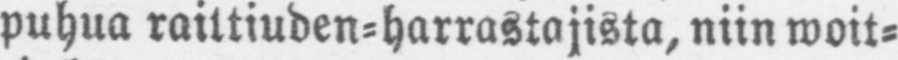puhua raittiuden-harrastajista, niin woit-
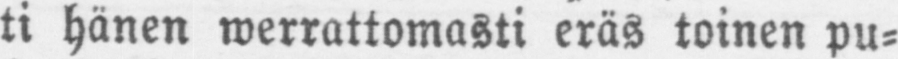ti hänen merrattomasti eräs toinen pu-
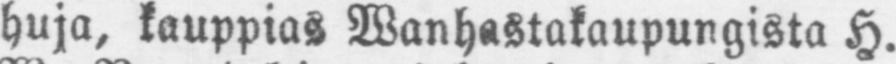huja, kauppias Wanhastakaupungista H.
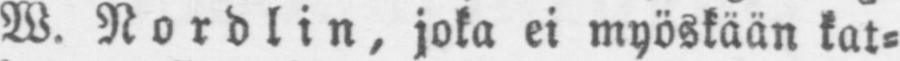W. Nordiin, joka ei myöskään kat-
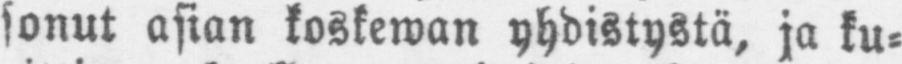sonut asian koskewan yhdistystä, ja ku-
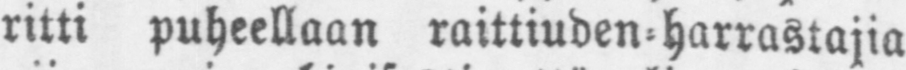ritti puheellaan raittiuden-harrastajia
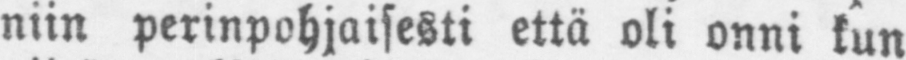niin perinpohjaisesti että oli onni kun
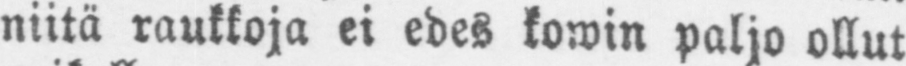niitä raukkoja ei edes kowin paljo ollut
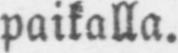paikalla.
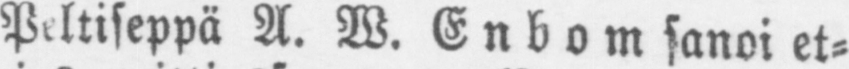Peltiseppä A. W. Enbom sanoi et-
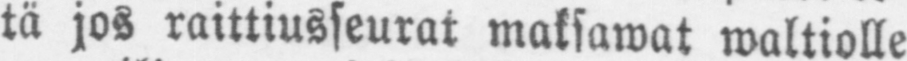tä jos raittiusseurat maksawat waltiolle
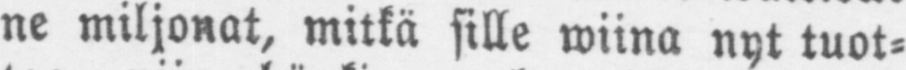ne miljonat, mitkä sille wiina nyt tuot-
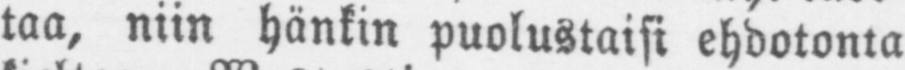taa, niin hänkin puolustaisi ehdotonta
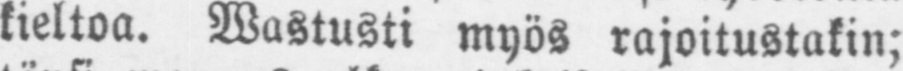kieltoa. Wastusti myös rajoitustakin;
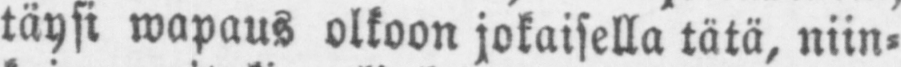täysi wapaus olkoon jokaisella tätä, niin-
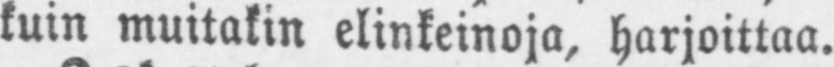kuin muitakin elinkeinoja, harjoittaa.
